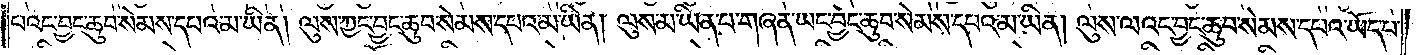པའང་བྱང་ཆུབ་སེམས་དཔའ་མ་ཡིན། ལུས་ཀྱང་བྱང་ཆུབ་སེམས་དཔའ་མ་ཡིན། ལུས་མ་ཡིན་པ་གཞན་ཡང་བྱང་ཆུབ་སེམས་དཔའ་མ་ཡིན། ལུས་ལའང་བྱང་ཆུབ་སེམས་དཔའ་ཡོད་པ་
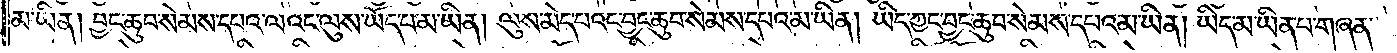མ་ཡིན། བྱང་ཆུབ་སེམས་དཔའ་ལའང་ལུས་ཡོད་པ་མ་ཡིན། ལུས་མེད་པའང་བྱང་ཆུབ་སེམས་དཔའ་མ་ཡིན། ཡིད་ཀྱང་བྱང་ཆུབ་སེམས་དཔའ་མ་ཡིན། ཡིད་མ་ཡིན་པ་གཞན་
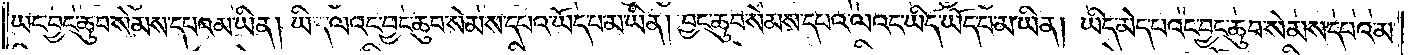ཡང་བྱང་ཆུབ་སེམས་དཔའ་མ་ཡིན། ཡིད་ལའང་བྱང་ཆུབ་སེམས་དཔའ་ཡོད་པ་མ་ཡིན། བྱང་ཆུབ་སེམས་དཔའ་ལའང་ཡིད་ཡོད་པ་མ་ཡིན། ཡིད་མེད་པའང་བྱང་ཆུབ་སེམས་དཔའ་མ་
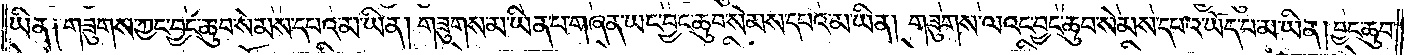ཡིན༑ གཟུགས་ཀྱང་བྱང་ཆུབ་སེམས་དཔའ་མ་ཡིན། གཟུགས་མ་ཡིན་པ་གཞན་ཡང་བྱང་ཆུབ་སེམས་དཔའ་མ་ཡིན། གཟུགས་ལའང་བྱང་ཆུབ་སེམས་དཔའ་ཡོད་པ་མ་ཡིན། བྱང་ཆུབ་
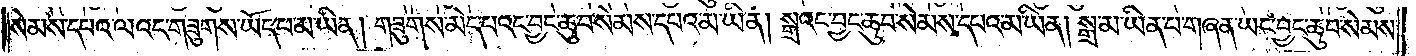སེམས་དཔའ་ལའང་གཟུགས་ཡོད་པ་མ་ཡིན། གཟུགས་མེད་པའང་བྱང་ཆུབ་སེམས་དཔའ་མ་ཡིན། སྒྲའང་བྱང་ཆུབ་སེམས་དཔའ་མ་ཡིན། སྒྲ་མ་ཡིན་པ་གཞན་ཡང་བྱང་ཆུབ་སེམས་
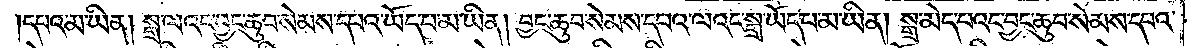དཔའ་མ་ཡིན། སྒྲ་ལའང་བྱང་ཆུབ་སེམས་དཔའ་ཡོད་པ་མ་ཡིན། བྱང་ཆུབ་སེམས་དཔའ་ལའང་སྒྲ་ཡོད་པ་མ་ཡིན། སྒྲ་མེད་པའང་བྱང་ཆུབ་སེམས་དཔའ་
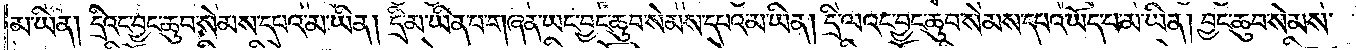མ་ཡིན། དྲིའང་བྱང་ཆུབ་སེམས་དཔའ་མ་ཡིན། དྲི་མ་ཡིན་པ་གཞན་ཡང་བྱང་ཆུབ་སེམས་དཔའ་མ་ཡིན། དྲི་ལའང་བྱང་ཆུབ་སེམས་དཔའ་ཡོད་པ་མ་ཡིན། བྱང་ཆུབ་སེམས་
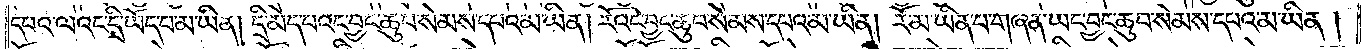དཔའ་ལའང་དྲི་ཡོད་པ་མ་ཡིན། དྲི་མེད་པའང་བྱང་ཆུབ་སེམས་དཔའ་མ་ཡིན། རོའང་བྱང་ཆུབ་སེམས་དཔའ་མ་ཡིན། རོ་མ་ཡིན་པ་གཞན་ཡང་བྱང་ཆུབ་སེམས་དཔའ་མ་ཡིན།
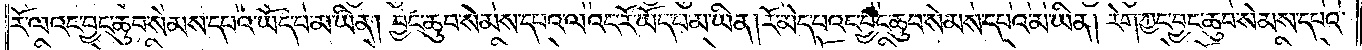རོ་ལའང་བྱང་ཆུབ་སེམས་དཔའ་ཡོད་པ་མ་ཡིན། བྱང་ཆུབ་སེམས་དཔའ་ལའང་རོ་ཡོད་པ་མ་ཡིན། རོ་མེད་པའང་བྱང་ཆུབ་སེམས་དཔའ་མ་ཡིན། རེག་ཀྱང་བྱང་ཆུབ་སེམས་དཔའ་
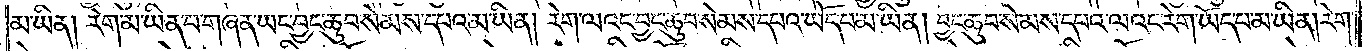མ་ཡིན། རེག་མ་ཡིན་པ་གཞན་ཡང་བྱང་ཆུབ་སེམས་དཔའ་མ་ཡིན། རེག་ལའང་བྱང་ཆུབ་སེམས་དཔའ་ཡོད་པ་མ་ཡིན། བྱང་ཆུབ་སེམས་དཔའ་ལའང་རེག་ཡོད་པ་མ་ཡིན། རེག་
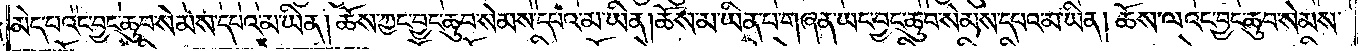མེད་པའང་བྱང་ཆུབ་སེམས་དཔའ་མ་ཡིན། ཆོས་ཀྱང་བྱང་ཆུབ་སེམས་དཔའ་མ་ཡིན། ཆོས་མ་ཡིན་པ་གཞན་ཡང་བྱང་ཆུབ་སེམས་དཔའ་མ་ཡིན། ཆོས་ལའང་བྱང་ཆུབ་སེམས་
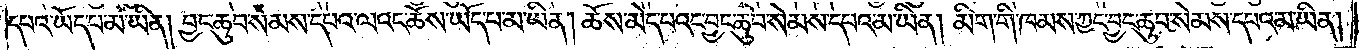དཔའ་ཡོད་པ་མ་ཡིན། བྱང་ཆུབ་སེམས་དཔའ་ལའང་ཆོས་ཡོད་པ་མ་ཡིན། ཆོས་མེད་པའང་བྱང་ཆུབ་སེམས་དཔའ་མ་ཡིན། མིག་གི་ཁམས་ཀྱང་བྱང་ཆུབ་སེམས་དཔའ་མ་ཡིན།
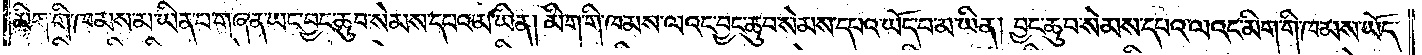མིག་གི་ཁམས་མ་ཡིན་པ་གཞན་ཡང་བྱང་ཆུབ་སེམས་དཔའ་མ་ཡིན། མིག་གི་ཁམས་ལའང་བྱང་ཆུབ་སེམས་དཔའ་ཡོད་པ་མ་ཡིན། བྱང་ཆུབ་སེམས་དཔའ་ལའང་མིག་གི་ཁམས་ཡོད་
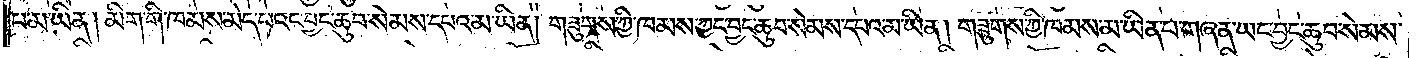པ་མ་ཡིན། མིག་གི་ཁམས་མེད་པའང་བྱང་ཆུབ་སེམས་དཔའ་མ་ཡིན། གཟུགས་ཀྱི་ཁམས་ཀྱང་བྱང་ཆུབ་སེམས་དཔའ་མ་ཡིན། གཟུགས་ཀྱི་ཁམས་མ་ཡིན་པ་གཞན་ཡང་བྱང་ཆུབ་སེམས་
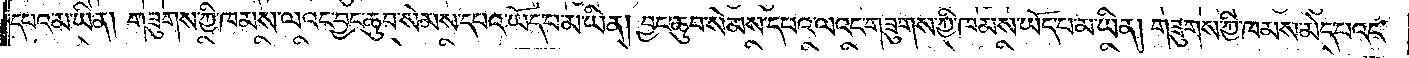དཔའ་མ་ཡིན། གཟུགས་ཀྱི་ཁམས་ལའང་བྱང་ཆུབ་སེམས་དཔའ་ཡོད་པ་མ་ཡིན། བྱང་ཆུབ་སེམས་དཔའ་ལའང་གཟུགས་ཀྱི་ཁམས་ཡོད་པ་མ་ཡིན། གཟུགས་ཀྱི་ཁམས་མེད་པའང་
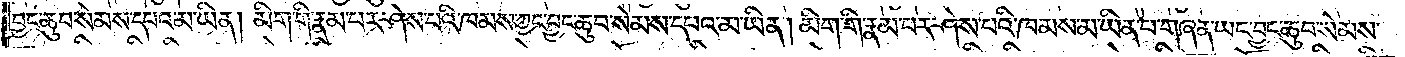བྱང་ཆུབ་སེམས་དཔའ་མ་ཡིན། མིག་གི་རྣམ་པར་ཤེས་པའི་ཁམས་ཀྱང་བྱང་ཆུབ་སེམས་དཔའ་མ་ཡིན། མིག་གི་རྣམ་པར་ཤེས་པའི་ཁམས་མ་ཡིན་པ་གཞན་ཡང་བྱང་ཆུབ་སེམས་
